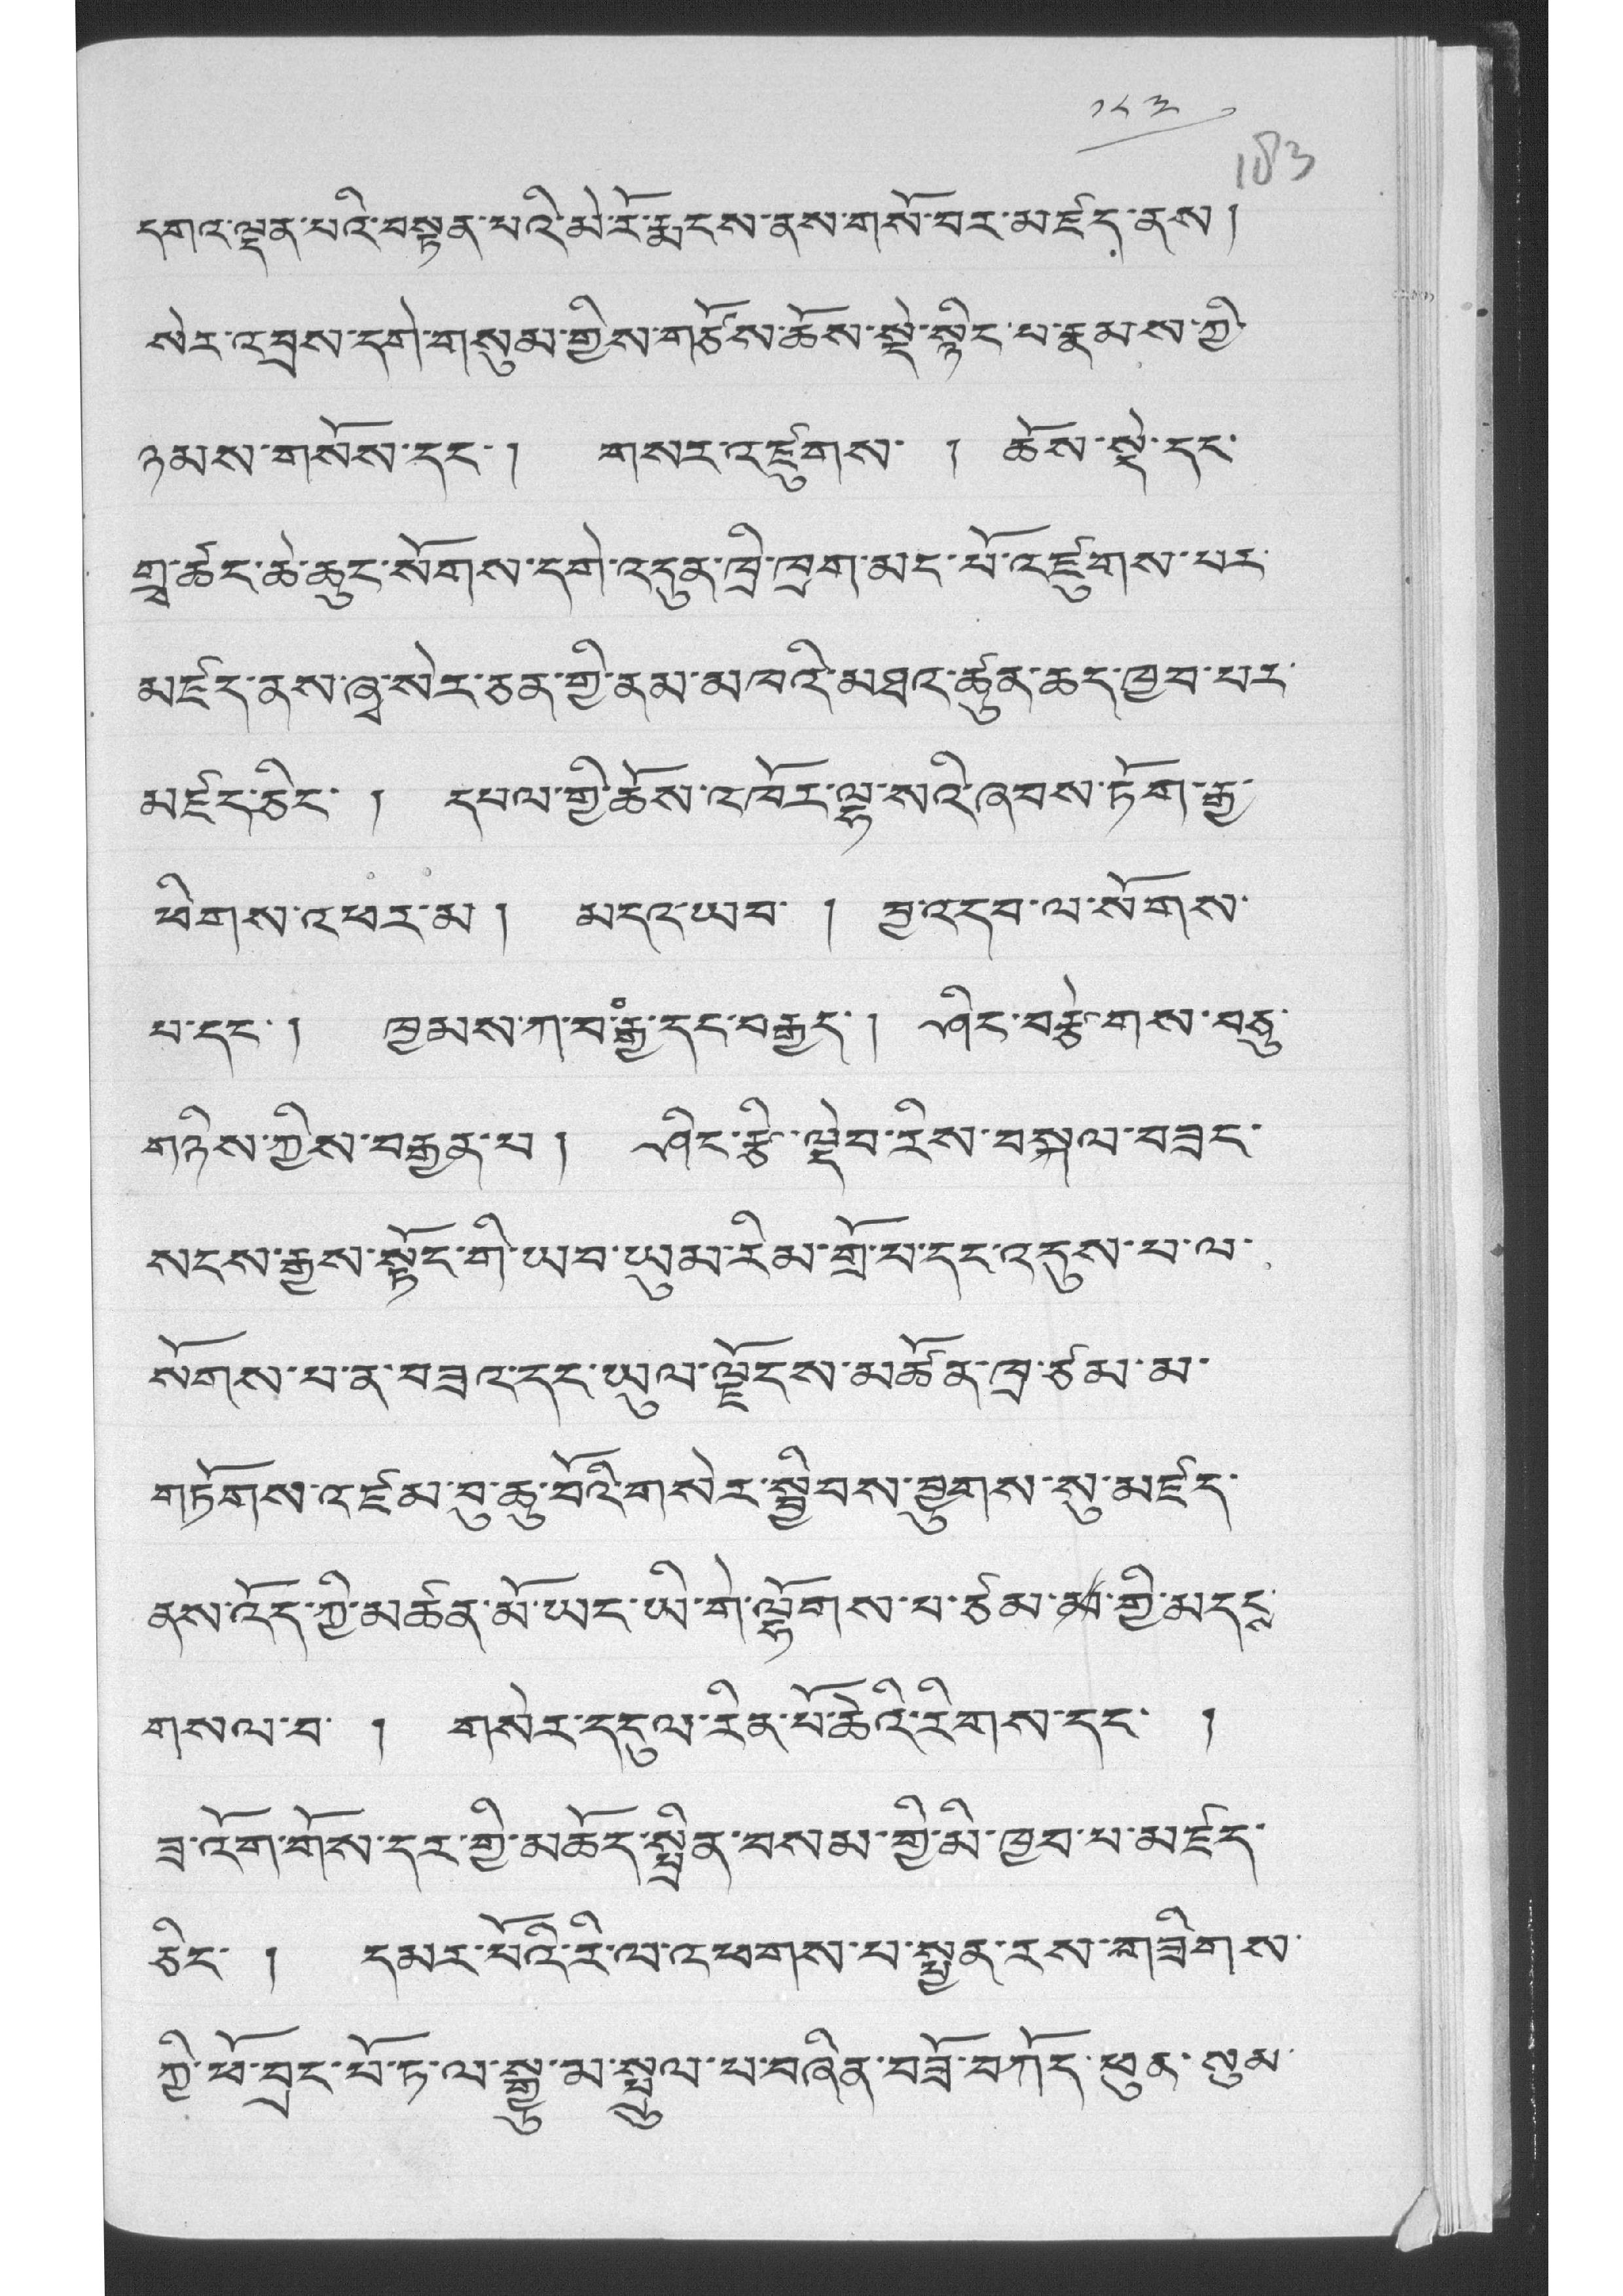༡༨༣
དགའ་ལྡན་པའི་བསྟན་པའི་མེ་རོ་རྨངས་ནས་གསོ་བར་མཛད་ནས།
སེར་འབྲས་དགེ་གསུམ་གྱིས་གཙོས་ཆོས་སྡེ་སྙིང་པ་རྣམས་ཀྱི་
ཉམས་གསོས་དང་། གསར་འཛུགས་ ། ཆོས་སྡེ་དང་
གྲྭ་ཚང་ཆེ་ཆུང་སོགས་དགེ་འདུན་ཁྲི་ཁྲག་མིང་པོ་འཛུགས་པར་
མཛད་ནས་ཞྭ་སེར་ཅན་གྱི་ནམ་མཁའི་མཐའ་ཚུན་ཆད་ཁྱབ་པར་
མཛད་ཅིང་ ། དཔལ་གྱི་ཆོས་འཁོར་ལྷ་སའི་ཞབས་ཏོག་རྒྱ་
ཕིགས་འཕར་མ ། མདའ་ཡབ་ ། བྱ་འདབ་ལ་སོགས་
པ་དང་། ཁྱམས་ཀ་བཾ་རྒྱ་དང་བརྒྱད་། ཤིང་བརྩེགས་བཅུ་
གཉིས་ཀྱིས་བརྒྱན་པ། ཤིང་རྩི་ལྡེབ་རིས་བསྐལ་བཟང་
སངས་རྒྱས་སྟོང་གི་ཡབ་ཡུམ་རིམ་གྲོ་པ་དང་འདུས་པ་ལ་
སོགས་པ་ན་བཟའ་དང་ཡུལ་ལྗོངས་མཚོན་ཁྲ་ཙམ་མ་
གཏོགས་འཛམ་བུ་ཆུ་བོའི་གསེར་སྦྱིབས་བྱུགས་སུ་མཛད་
ནས་འོད་ཀྱི་མཚན་མོ་ཡང་ཡི་གེ་ལྷོགས་པ་ཙམ་མ་གྱི་མདངས་
གསལ་བ་ ། གསེར་དངུལ་རིན་པོ་ཆེའི་རིགས་དང་ །
ཟ་འོག་གོས་དར་གྱི་མཆོད་སྤྲིན་བསམ་གྱི་མི་ཁྱབ་པ་མཛད་
ཅིང་ ། དམར་པོའི་རི་ལ་འཕགས་པ་སྦྱན་རས་གཟིགས་
ཀྱི་ཕོ་བྲང་པོ་ཏ་ལ་སྒྱུ་མ་སྤྲུལ་པ་བཞིན་བཟོ་བཀོད་ཕུན་སུམ་
